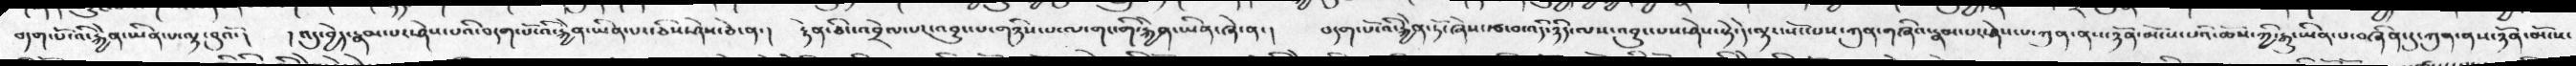བདག་པོ་འི་རྐྱེན་ཡིན་པ་ལྟ་བུའོ་།   །འདུ་བྱེད་རྣམ་པར་ཤེས་པའི་བདག་པོ་འི་རྐྱེན་ཡིན་པ་ཅིས་ཤེས་ཅེ་ན་།   རྟེན་ཅིང་འབྲེལ་པར་འབྱུང་པ་གཉིས་པ་ལ་གང་གི་རྐྱེན་ཡིན་ཞེ་ན་།    བདག་པོ་འི་རྐྱེན་ཏོ་ཞེས་རྩ་བ་འདི་ཉིད་ལས་འབྱུང་པས་ཤེས་སྟེ་དེ་ལྟར་སོང་པས་ཀུན་གཞིའ་རྣམ་པར་ཤེས་པ་ཀུན་ནས་ཉོན་མོངས་པའི་ཆོས་ཀྱི་རྒྱུ་ཡིན་པ་བཞིན་དུ་ཀུན་ནས་ཉོན་མོངས་
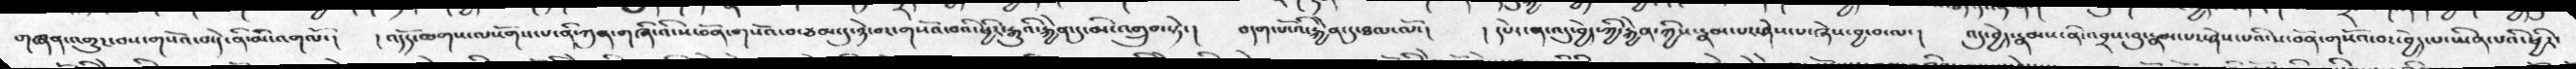གཞན་འགྱུར་བས་གསོའ་བ་དེ་ནི་མི་འགལོ་།  །འདོད་ཆགས་ལསོགས་པ་ནི་ཀུན་གཞི་འི་ས་བོན་གསོའ་བ་ཙམ་དུ་ཉེ་བར་གསོའ་བའི་ཕྱིར་རྒྱུའི་རྐྱེན་དུ་མི་འགྲུབ་ཏེ་།   བདག་པོ་འི་རྐྱེན་དུ་ཐལ་ལོ་།   །དཔེར་ན་འདུ་བྱེད་ཀྱི་རྐྱེན་ཀྱིས་རྣམ་པར་ཤེས་པ་ཞེས་བྱ་བ་ལ་།   འདུ་བྱེད་རྣམས་ནི་འབྲས་བུ་རྣམ་པར་ཤེས་པའི་ས་བོན་གསོའ་བར་བྱེད་པ་ཡིན་པའི་ཕྱིར་
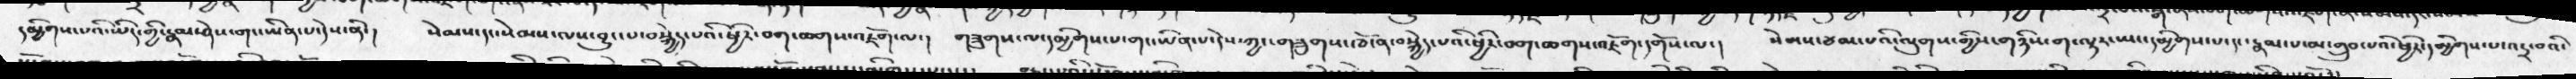དམྱིགས་པའི་ཡིད་ཀྱི་རྣམ་ཤེས་གང་ཡིན་པ་དེས་ནི་།   སེམས་དང་སེམས་ལས་བྱུང་པ་བསྐྱེད་པའི་ཕྱིར་བག་ཆགས་འཇོག་ལ་།   གཟུགས་ལ་དམྱིགས་པ་གང་ཡིན་པ་དེས་ཀྱང་གཟུགས་ཁོ་ན་བསྐྱེད་པའི་ཕྱིར་བག་ཆགས་འཇོག་དགོས་ལ་།   སེམས་ཙམ་པའི་ལུགས་གྱིས་གཉིས་ག་ལྟར་ཡང་དམྱིགས་པ་དང་རྣམ་པ་མ་གྲུབ་པའི་ཕྱིར་དམྱིགས་པ་འདྲ་བའི་
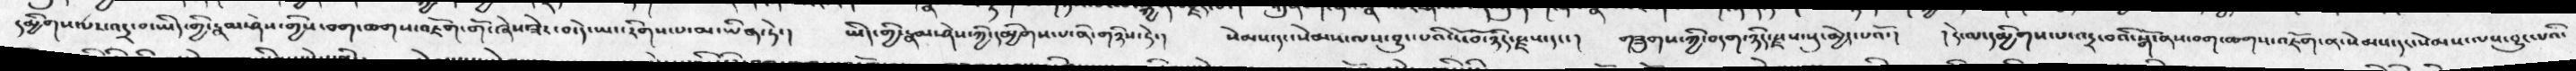དམྱིགས་པར་འདྲ་བ་ཡིད་གྱི་རྣམ་ཤེས་གྱིས་བག་ཆགས་འཇོག་གོ་ཞེས་ཟེར་བ་དེ་ཡང་རིགས་པ་མ་ཡིན་ཏེ་།   ཡིད་གྱི་རྣམ་ཤེས་ཀྱི་དམྱིགས་པ་ནི་གཉིས་ཏེ་།   སེམས་དང་སེམས་ལས་བྱུང་པའི་ངོ་བོ་ཉིད་རྫས་དང་།   གཟུགས་ཀྱི་བདག་ཉིད་རྫས་སུ་མྱེད་པའོ་།  །དེ་ལ་དམྱིགས་པ་འདྲ་བའི་སྒོ་ནས་བག་ཆགས་འཇོག་ན་སེམས་དང་སེམས་ལས་བྱུང་པའི་
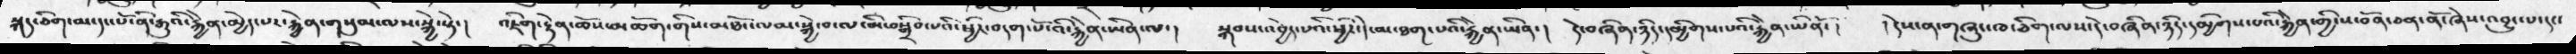སྐད་ཅིག་མ་དང་པོ་ནི་རྒྱུའི་རྐྱེན་མྱེད་པར་རྐྱེན་གསུམ་ལས་སྐྱེ་སྟེ་།   འཇིག་རྟེན་ཆོས་མཆོག་གིས་མཐོང་ལམ་སྐྱེ་བ་ལ་མི་བསྒྲིབ་པའི་ཕྱིར་བདག་པོ་འི་རྐྱེན་ཡིན་ལ་།  སྐབས་འབྱེད་པའི་ཕྱིར་དེ་མ་ཐག་པའི་རྐྱེན་ཡིན་།   དེ་བཞིན་ཉིད་དམྱིགས་པའི་རྐྱེན་ཡིནོ་།   །དེས་ན་གཞུང་ཁ་ཅིག་ལས་དེ་བཞིན་ཉིད་དམྱིགས་པའི་རྐྱེན་གྱི་ས་བོན་ཅན་ནོ་ཞེས་འབྱུང་པ་དང་
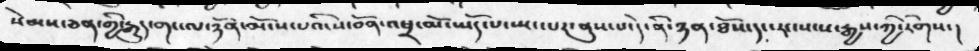སེམས་ཅན་གྱི་རྒྱུད་གང་ལ་ཉོན་མོངས་པའི་ས་བོན་འཕྲ་མོ་ཡོད་པ་སྤང་པར་ནུས་པ་དེ་ནི་ཉན་ཐོས་དང་རང་སངས་རྒྱས་ཀྱི་རིགས་།
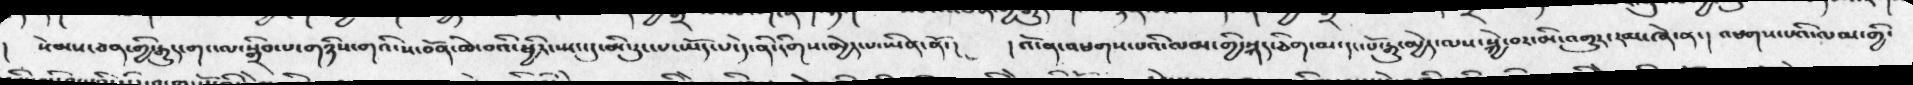།  སེམས་ཅན་གྱི་རྒུད་གང་ལ་སྒྲིབ་པ་གཉིས་གའི་ས་བོན་ཆེ་བའི་ཕྱིར་སྤང་དུ་མི་རུང་པ་ཡོད་པ་དེ་ནི་རིགས་མྱེད་པ་ཡིན་ནོ་།   །འོ་ན་འཕགས་པའི་ལམ་གྱི་སྐད་ཅིག་མ་དང་པོ་རྒུ་མྱེད་ལས་སྐྱེ་བར་མི་འགྱུར་རམ་ཞེ་ན་། འཕགས་པའི་ལམ་གྱི་
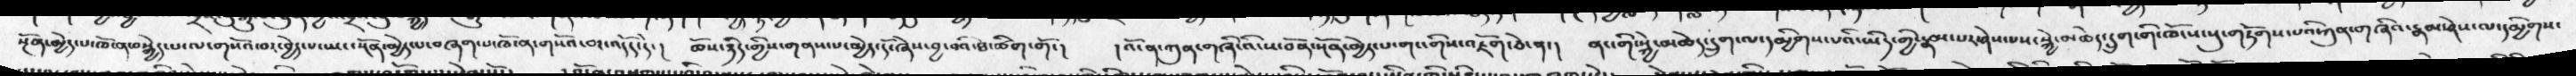སྔོན་མྱེད་པ་ཁོ་ན་བསྐྱེད་པ་ལ་གསོའ་བར་བྱེད་པ་ཡང་སྔོན་མྱེད་པ་བཞག་པ་ཁོ་ན་གསོའ་བར་འདོད་དེ་།   ཆོས་ཉིད་གྱིས་གནས་པ་མྱེད་དོ་ཞེས་བྱ་བའི་ཐ་ཚིག་གོ་།  །འོ་ན་ཀུན་གཞི་འི་ས་བོན་སྔོན་མྱེད་པ་གང་གིས་འཇོག་ཅེ་ན་།   ནང་གི་སྐྱེ་མཆེད་དྲུག་ལ་དམྱིགས་པའི་ཡིད་ཀྱི་རྣམ་པར་ཤེས་པས་སྐྱེ་མཆེད་དྲུག་གི་ཁོངས་སུ་གཏོགས་པའི་ཀུན་གཞིའ་རྣམ་ཤེས་ལ་དམྱིགས་
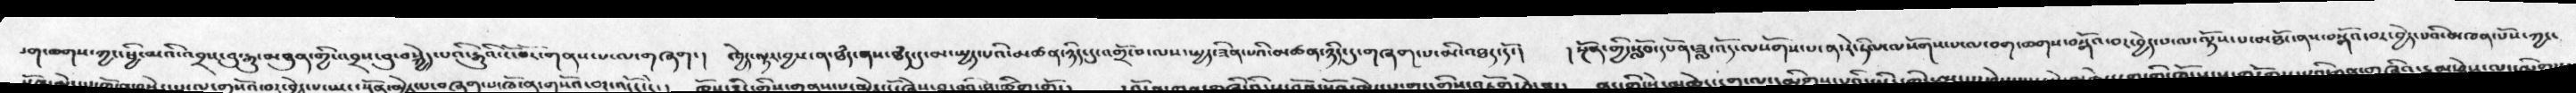བག་ཆགས་ཀྱང་ཕྱི་མའི་འབྲས་བུ་རྒྱུ་མཐུན་གྱི་འབྲས་བུ་བསྐྱེད་པའི་རྒྱུའི་ངོ་བོར་གནས་པ་ལ་གཞག་།  ཁྱེད་ལྟར་བྱས་ན་ཐདཾ་ནས་ཐཾད་དུ་མ་སྤྱད་པའི་མཚན་ཉིད་དུ་འགྲོ་བ་ལས་སྤྱད་ཟིན་པའི་མཚན་ཉིད་དུ་གཞག་པ་མི་འཐད་དོ་།   །སྔོན་གྱི་སློབ་དཔོན་ཟླ་འོད་ལསོགས་པ་ན་རེ་ཏིལ་ལསོགས་པ་ལ་བག་ཆགས་བསྒོའ་བར་བྱེད་པ་ལ་ལྟོས་པ་མཐོང་ནས་བསྒོའ་བར་བྱེད་པའི་མཁན་པོས་ཀྱང་
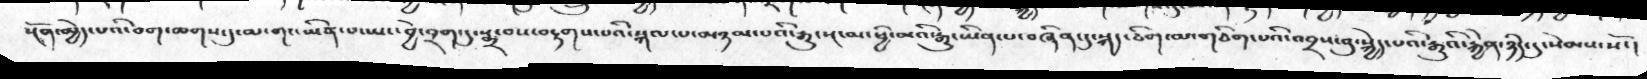སྔོན་མྱེད་པའི་བག་ཆགས་དུ་མ་གང་ཡིན་པ་ཡང་བྱེ་བྲག་དུ་སྨྲ་བས་བརྟགས་པའི་སྐལ་པ་མཉམ་པའི་རྒྱུ་སྔ་མ་ཕྱི་མའི་རྒྱུ་ཡིན་པ་བཞིན་དུ་སྐད་ཅིག་མ་གཅིག་པའི་འབྲས་བུ་སྐྱེད་པའི་རྒྱུའི་རྐྱེན་ཉིད་དུ་སེམས་སོ་།
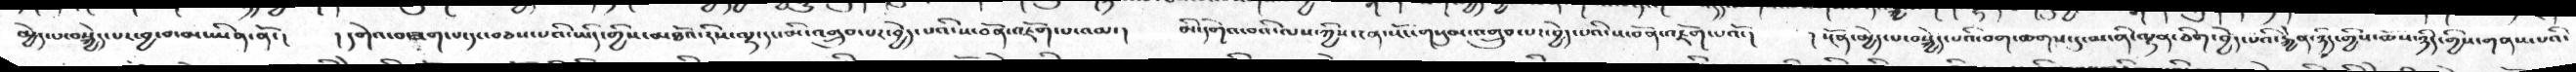མྱེད་པ་བསྐྱེད་པར་བྱ་བ་མ་ཡིན་ནོ་།   །དགེའ་བ་ཟག་པ་དང་བཅས་པའི་ཡིད་གྱིས་མཐོའ་རིས་ལྟ་དང་མི་འགྲུབ་པར་བྱེད་པའི་ས་བོན་འཇོག་པ་འམ་།   མི་དགེའ་བའི་ལས་ཀྱིས་ངན་སོང་གསུམ་འགྲུབ་པར་བྱེད་པའི་ས་བོན་འཇོག་པའོ་།    །སྔོན་མྱེད་པ་བསྐྱེད་པའི་བག་ཆགས་དུ་མ་ནི་ལྷན་ཅིག་བྱེད་པའི་རྐྱེན་ཉིད་གྱིས་ཆེས་ཉིདདགྱིས་གནས་པའི་
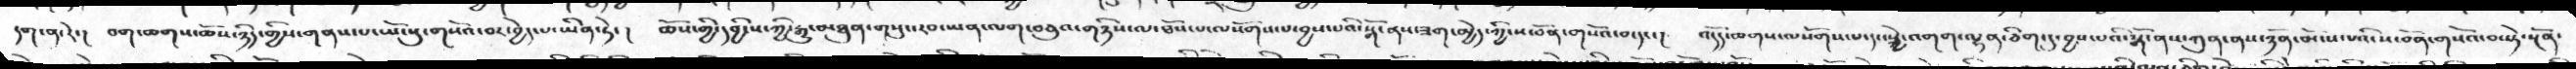དག་ན་རེ་།   བག་ཆགས་ཆོས་ཉིད་གྱིས་གནས་པ་ཡོངསུ་གསོའ་བར་བྱེད་པ་ཡིན་ཏེ་།  ཆོས་གྱི་དབྱིངས་ཀྱི་རྒྱུ་མཐུན་གསུང་རབ་ཡན་ལག་བཅུའ་གཉིས་ལ་ཐོས་པ་ལསོགས་པ་བྱས་པའི་སྒོ་ནས་ཟག་མྱེད་ཀྱི་ས་བོན་གསོའ་བ་དང་།   འདོད་ཆགས་ལསོགས་པ་དང་སྐྱེ་འགག་ལྷན་ཅིག་དུ་བྱས་པའི་སྒོ་ནས་ཀུན་ནས་ཉོན་མོངས་པའི་ས་བོན་གསོའ་བ་སྟེ་སྔོན་
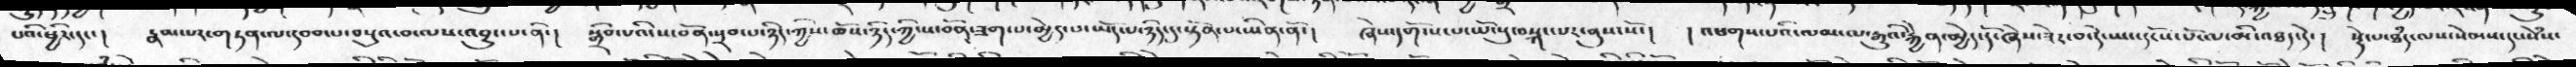པའི་ཕྱིར་དང་།   རྣམ་པར་གཏན་ལ་དབབ་པ་བསྡུའ་བ་ལས་འབྱུང་པ་ནི་།   སྒྲིབ་པའི་ས་བོན་སྲབ་པ་ཉིད་ཀྱིས་ཆོས་ཉིད་ཀྱི་ས་བོན་ཟག་པ་མྱེད་པ་ཡོད་པ་ཉིད་དུ་སྟོན་པ་ཡིན་ནོ་།   ཞེས་དགོངས་པ་ཡོངསུ་བསྐང་པར་ནུས་སོ་།   །འཕགས་པའི་ལམ་ལ་རྒུའི་རྐྱེན་མྱེད་དོ་ཞེས་ཟེར་བ་དེ་ཡང་དངོས་པོ་ལ་མི་འཐད་དེ་།   སྡེ་པ་ཐཾད་ལས་སེམས་དང་སེཾས་
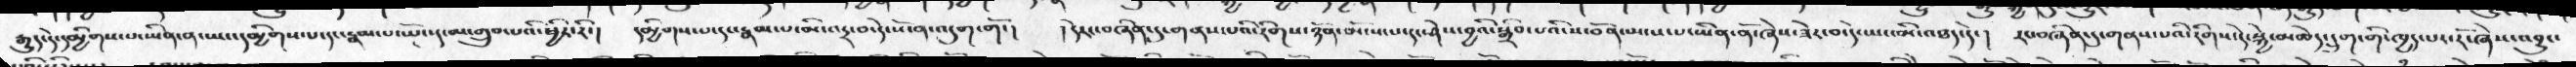རྒྱུད་དེ་དམྱིགས་པ་ཡིན་ན་ཡང་དམྱིགས་པ་དང་རྣམ་པ་ཡོངསུ་མ་གྲུབ་པའི་ཕྱིར་རོ་།  དམྱིགས་པ་དང་རྣམ་པ་མི་འདྲ་བ་དེ་སོ་ན་འདུག་གོ་།  །དེརང་བཞིན་དུ་གནས་པའི་རིགས་ཉོན་མོངས་པ་དང་ཤེས་བྱའི་སྒྲིབ་པའི་ས་བོན་སྤངས་པ་ཡིན་ནོ་ཞེས་ཟེར་བ་དེ་ཡང་མི་འཐད་དེ་།   རང་བཞིན་དུ་གནས་པའི་རིགས་དེ་སྐྱེ་མཆེད་དྲུག་གི་ཁྱད་པར་རོ་ཞེས་འབྱུང་
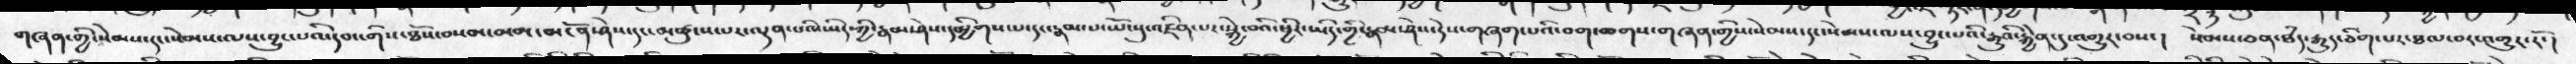གཞན་གྱི་སེམས་དང་སེམས་ལས་བྱུང་པའི་དབང་གིས་ཐོས་བསམ་མམ་མངོན་ཤེས་དང་མཚུངས་པར་ལྡན་པའི་ཡིད་ཀྱི་རྣམ་ཤེས་དམྱིགས་པ་དང་རྣམ་པ་ཡོངསུ་འཛིན་པར་སྐྱེ་བའི་ཕྱིར་ཡིད་གྱི་རྣམ་ཤེས་དེས་གཞག་པའི་བག་ཆགས་གཞན་གྱིས་སེམས་དང་སེམས་ལས་བྱུང་བའི་རྒྱུའི་རྐྱེན་དུ་འགྱུར་བས་།  སེམས་ཅན་ཐཾད་རྒྱུད་ཅིག་པར་ཐལ་བར་འགྱུར་རོ་།
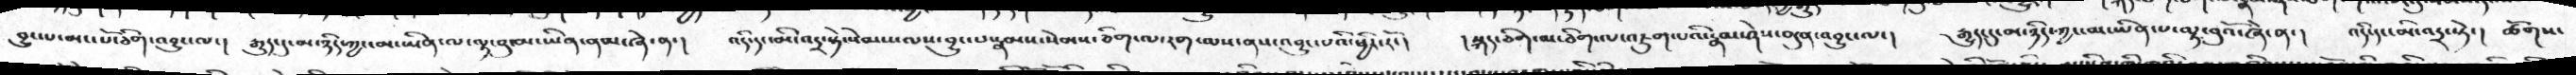བྱུང་པ་མང་པོ་ཅིག་འབྱུང་ལ་།  རྒུད་དུ་མ་ཉིད་ཀྱང་མ་ཡིན་ལ་ལྟ་བུ་མ་ཡིན་ནམ་ཞེ་ན་།   འདི་དང་མི་འདྲ་སྟེ་སེམས་ལས་བྱུང་པ་རྣམས་སེམས་ཅིག་ལ་རག་ལས་ནས་འབྱུང་པའི་ཕྱིར་རོ་།   །སྐད་ཅིག་མ་ཅིག་ལ་འཇུག་པའི་རྣམ་ཤེས་བདུན་འབྱུང་ལ་།   རྒྱུད་དུ་མ་ཉིད་ཀྱང་མ་ཡིན་པ་ལྟ་བུའོ་ཞེ་ན་།  འདི་དང་མི་འདྲ་སྟེ་།  ཚོགས་
